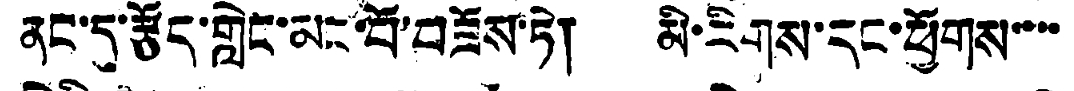ནང་དུ་རྩོད་གླེང་མང་པོ་བཟོས་ཏེ། མི་རིགས་དང་ཕྱོགས་་་་
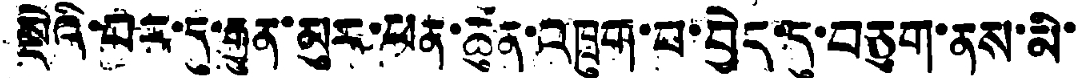སྡེའི་བར་དུ་རྒྱུན་མུར་ཕན་ཚུན་འཁྲུག་པ་བྱེད་དུ་བཅུག་ནས་མི་
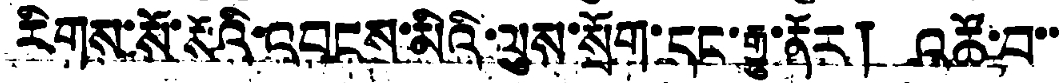རིགས་སོ་སོའི་འབངས་མིའི་ལུས་སྲོག་དང་རྒྱུ་ནོར། འཚོ་བ་་
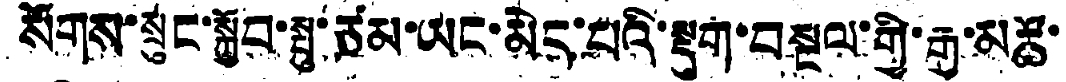སོགས་སྲུང་སྐྱོབ་སྤུ་ཙམ་ཡང་མེད་པའི་སྡུག་བསྔལ་གྱི་རྒྱ་མཚོ་
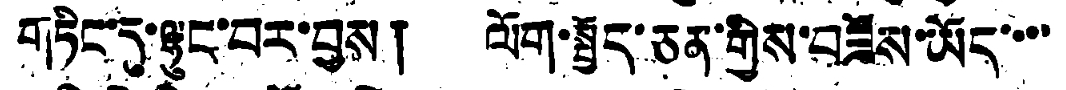གཏིང་དུ་ལྷུང་བར་བྱས། ལོག་སྤྱོད་ཅན་གྱིས་བཟོས་ཡོད་་་་
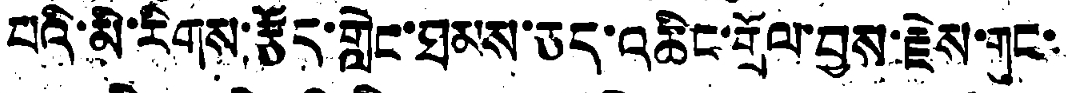པའི་མི་རིགས་རྩོད་གླེང་ཐམས་ཅད་འཆིང་གྲོལ་བྱས་རྗེས་གུང་
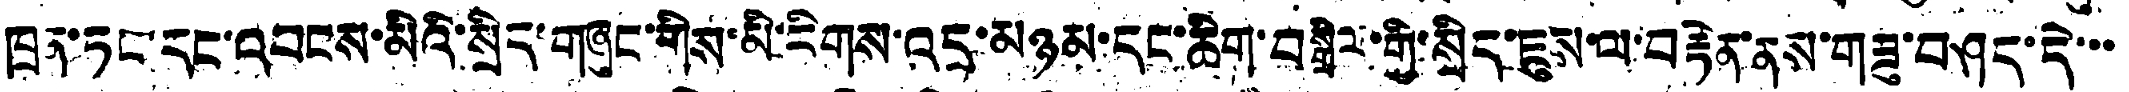ཁྲན་ཏང་དང་འབངས་མིའི་སྲིད་གཞུང་གིས་མི་རིགས་འདྲ་མཉམ་དང་ཆིག་བསྒྲིལ་གྱི་སྲིད་ཇུས་ལ་བརྟེན་ནས་གཟུ་བཤད་དེ་་་
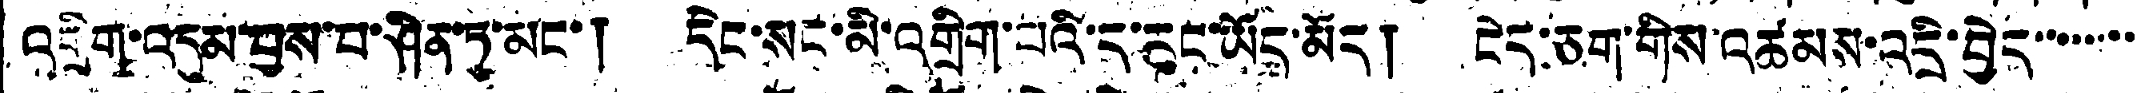འགྲིག་འདུམ་བྱས་པ་ཤིན་ཏུ་མང་། དིང་སང་མི་འགྲིག་པའི་ད་རུང་ཡོད་མོད། ངེད་ཅག་གིས་འཚམས་འདྲི་བྱེད་་་་་་་་
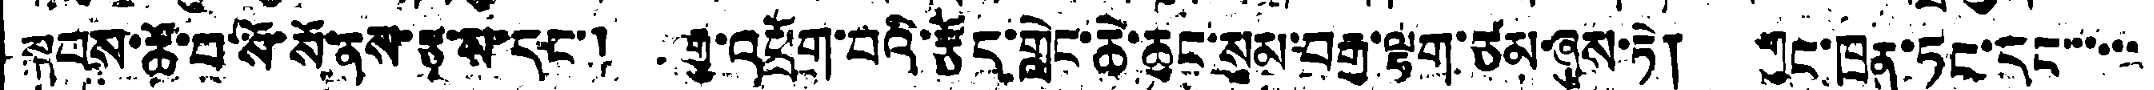སྐབས་ཚོ་བ་སོ་སོ་ནས་རྩྭ་ས་དང་། རྒྱུ་འཕྲོག་པའི་རྩོད་གླེང་ཆེ་ཆུང་སུམ་བརྒྱ་ལྷག་ཙམ་ཞུས་ཏེ། གུང་ཁྲན་ཏང་དང་་་་་་
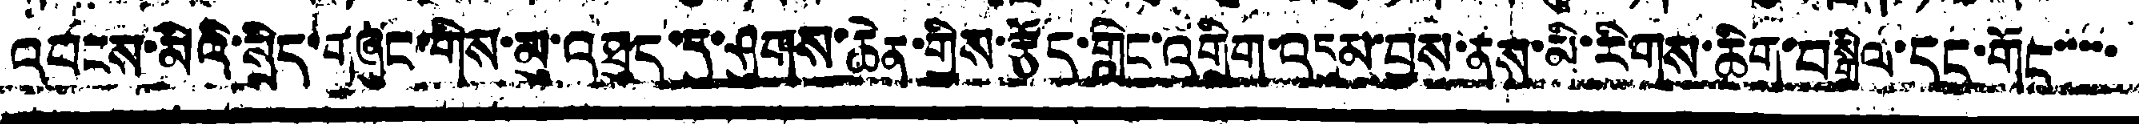འབངས་མིའི་སྲིད་གཞུང་གིས་མུ་འཐུད་དུ་ཤུགས་ཆེན་གྱིས་རྩོད་གླིང་འགྲིག་འདུམ་བྱས་ནས་མི་རིགས་ཆིག་བསྒྲིལ་དང་གོང་་་་་
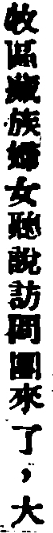牧區藏族婦女聽說訪問團來了，大
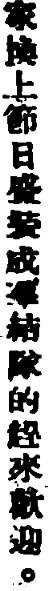家換上節日盛裝成羣結隊的趕來歡迎。
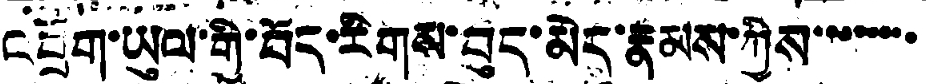འབྲོག་ཡུལ་གྱི་བོད་རིགས་བུད་མེད་རྣམས་ཀྱིས་་་་་་་་
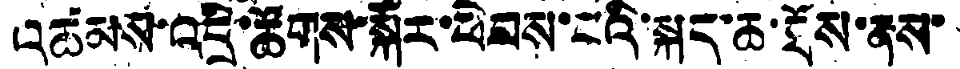འཚམས་འདྲི་ཚོགས་སྐོར་ཕེབས་པའི་སྐད་ཆ་ཐོས་ནས་
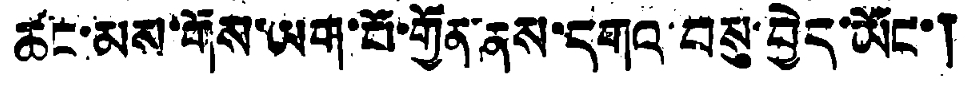ཚང་མས་གོས་ཡག་པོ་གྱོན་ནས་དགའ་བསུ་བྱེད་ཡོང་།
